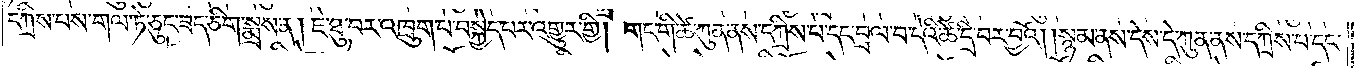དཀྲིས་པས་གལ་ཏེ་ཅུང་ཟད་ཅིག་སྨྲས་ན། ཇེ་ཐུ་བར་འཁྲུག་པ་བསྐྱེད་པར་འགྱུར་གྱི། གང་གི་ཚེ་ཀུན་ནས་དཀྲིས་པ་དང་བྲལ་བ་དེའི་ཚེ་དྲི་བར་བྱའོ། །སྙམ་ནས་དེས་དེ་ཀུན་ནས་དཀྲིས་པ་དང་
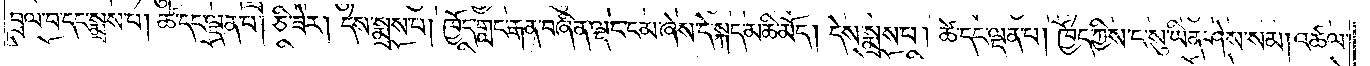བྲལ་བ་དང་སྨྲས་པ། ཚེ་དང་ལྡན་པ། ཅི་ཟེར། དེས་སྨྲས་པ། ཁྱོད་གླང་རྒན་བཞིན་ལྡང་ངམ་ཞེས་དེ་སྐད་མཆི་མོད། དེས་སྨྲས་པ། ཚེ་དང་ལྡན་པ། ཁྱོད་ཀྱིས་ང་སུ་ཡིན་ཤེས་སམ། འཚལ་
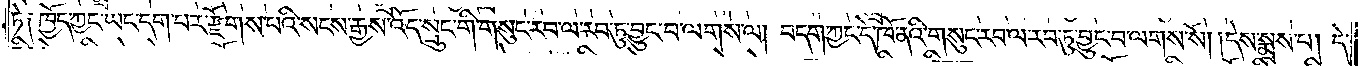ཏེ༑ ཁྱོད་ཀྱང་ཡང་དག་པར་རྫོགས་པའི་སངས་རྒྱས་འོད་སྲུང་གི་གསུང་རབ་ལ་རབ་ཏུ་བྱུང་བ་ལགས་ལ། བདག་ཀྱང་དེ་ཁོ་ནའི་གསུང་རབ་ལ་རབ་ཏུ་བྱུང་བ་ལགས་སོ། །དེས་སྨྲས་པ། དེ་
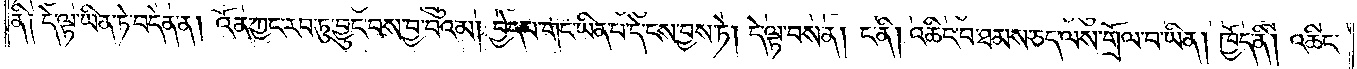ནི༑ དེ་ལྟ་ཡིན་ཏེ་བདེན་ན། འོན་ཀྱང་རབ་ཏུ་བྱུང་བས་བྱ་བའམ། བྱེད་པ་གང་ཡིན་པ་དེ་ངས་བྱས་ཏེ། དེ་ལྟ་བས་ན། ང་ནི། འཆིང་བ་ཐམས་ཅད་ལས་གྲོལ་བ་ཡིན། ཁྱོད་ནི། འཆིང་
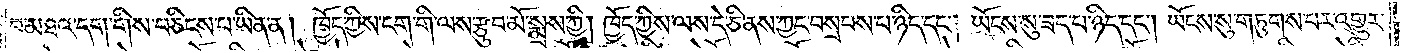བ་མཐའ་དག་གིས་བཅིངས་པ་ཡིན་ན། ཁྱོད་ཀྱིས་ངག་གི་ལས་རྩུབ་མོ་སྨྲས་ཀྱི། ཁྱོད་ཀྱིས་ལས་དེ་ཅི་ནས་ཀྱང་བསྲབས་པ་ཉིད་དང༌། ཡོངས་སུ་ཟད་པ་ཉིད་དང༌། ཡོངས་སུ་གཏུགས་པར་འགྱུར་
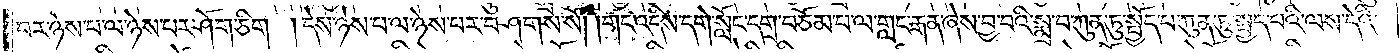བར་ཉེས་པ་ལ་ཉེས་པར་ཤོག་ཅིག །དེས་ཉེས་པ་ལ་ཉེས་པར་བཤགས་སོ། །གང་འདིས་དགེ་སློང་དགྲ་བཅོམ་པ་ལ་གླང་རྒན་ཞེས་བྱ་བའི་སྨྲ་བ་ཀུན་ཏུ་སྤྱོད་པ་ཀུན་ཏུ་སྤྱད་པའི་ལས་དེའི་
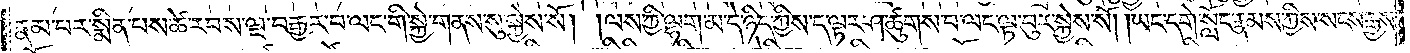རྣམ་པར་སྨིན་པས་ཚེ་རབས་ལྔ་བརྒྱར་བ་ལང་གི་སྐྱེ་གནས་སུ་སྐྱེས་སོ། །ལས་ཀྱི་ལྷག་མ་དེ་ཉིད་ཀྱིས་ད་ལྟར་ཤ་ཚུགས་བ་བ་ལང་ལྟ་བུར་སྐྱེས་སོ། །ཡང་དགེ་སློང་རྣམས་ཀྱིས་སངས་རྒྱས་
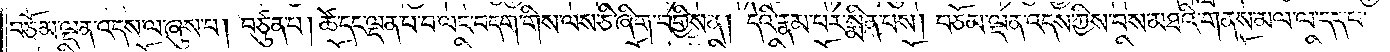བཅོམ་ལྡན་འདས་ལ་ཞུས་པ། བཙུན་པ། ཚེ་དང་ལྡན་པ་བ་ལང་བདག་གིས་ལས་ཅི་ཞིག་བགྱིས་ན། དེའི་རྣམ་པར་སྨིན་པས། བཅོམ་ལྡན་འདས་ཀྱིས་བས་མཐའི་གནས་མལ་ལ་དད་པ་
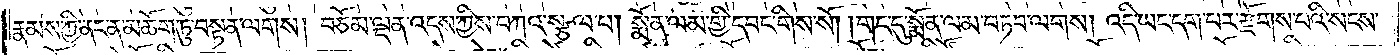རྣམས་ཀྱི་ནང་ན་མཆོག་ཏུ་བསྟན་ལགས། བཅོམ་ལྡན་འདས་ཀྱིས་བཀའ་སྩལ་པ། སྨོན་ལམ་གྱི་དབང་གིས་སོ། །གང་དུ་སྨོན་ལམ་བཏབ་ལགས། འདི་ཡང་དག་པར་རྫོགས་པའི་སངས་
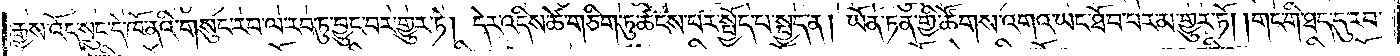རྒྱས་འོད་སྲུང་དེ་ཁོ་ནའི་གསུང་རབ་ལ་རབ་ཏུ་བྱུང་བར་གྱུར་ཏེ། དེར་འདིས་ཚེ་གཅིག་ཏུ་ཚངས་པར་སྤྱོད་པ་སྤྱད་ན། ཡོན་ཏན་གྱི་ཚོགས་འགའ་ཡང་ཐོབ་པར་མ་གྱུར་ཏོ། །གང་གི་ཐད་དུ་རབ་
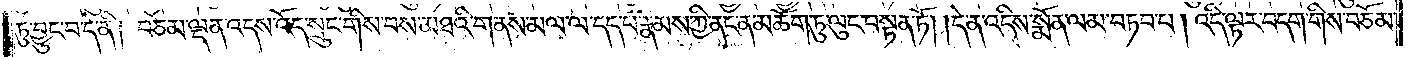ཏུ་བྱུང་བ་དེ་ནི། བཅོམ་ལྡན་འདས་འོད་སྲུང་གིས་བས་མཐའི་གནས་མལ་ལ་དད་པ་རྣམས་ཀྱི་ནང་ན་མཆོག་ཏུ་ལུང་བསྟན་ཏོ། །དེ་ན་འདིས་སྨོན་ལམ་བཏབ་པ། འདི་ལྟར་བདག་གིས་བཅོམ་
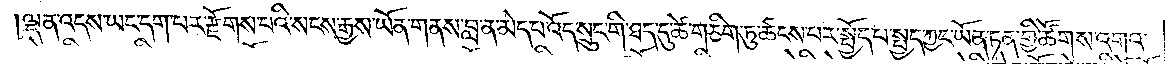ལྡན་འདས་ཡང་དག་པར་རྫོགས་པའི་སངས་རྒྱས་ཡོན་གནས་བླ་ན་མེད་པ་འོད་སྲུང་གི་ཐད་དུ་ཚེ་གཅིག་ཏུ་ཚངས་པར་སྤྱོད་པ་སྤྱད་ཀྱང་ཡོན་ཏན་གྱི་ཚོགས་འགའ་
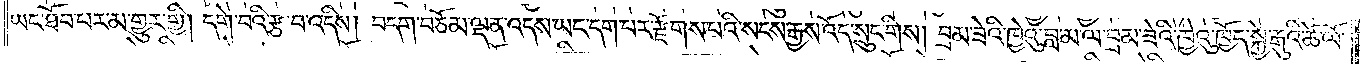ཡང་ཐོབ་པར་མ་གྱུར་གྱི། དགེ་བའི་རྩ་བ་འདིས། བདག་བཅོམ་ལྡན་འདས་ཡང་དག་པར་རྫོགས་པའི་སངས་རྒྱས་འོད་སྲུང་གིས། བྲམ་ཟེའི་ཁྱེའུ་བླ་མ་ལ་བྲམ་ཟེའི་ཁྱེའུ་ཁྱོད་སྐྱེ་རྒུའི་ཚེ་ལོ་
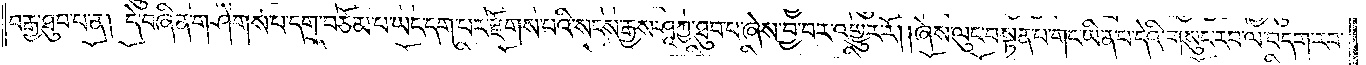བརྒྱ་ཐུབ་པ་ན། དེ་བཞིན་གཤེགས་པ་དགྲ་བཅོམ་པ་ཡང་དག་པར་རྫོགས་པའི་སངས་རྒྱས་ཤཱཀྱ་ཐུབ་པ་ཞེས་བྱ་བར་འགྱུར་རོ། །ཞེས་ལུང་བསྟན་པ་གང་ཡིན་པ་དེའི་གསུང་རབ་ལ་བདག་རབ་
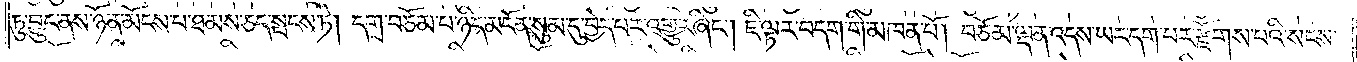ཏུ་བྱུང་ནས་ཉོན་མོངས་པ་ཐམས་ཅད་སྤངས་ཏེ། དགྲ་བཅོམ་པ་ཉིད་མངོན་སུམ་དུ་བྱེད་པར་འགྱུར་ཞིང༌། ཇི་ལྟར་བདག་གི་མཁན་པོ། བཅོམ་ལྡན་འདས་ཡང་དག་པར་རྫོགས་པའི་སངས་
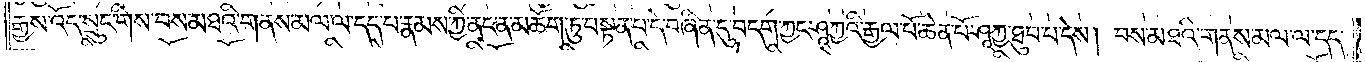རྒྱས་འོད་སྲུང་གིས་བས་མཐའི་གནས་མལ་ལ་དད་པ་རྣམས་ཀྱི་ནང་ན་མཆོག་ཏུ་བསྟན་པ་དེ་བཞིན་དུ་བདག་ཀྱང་ཤཱཀྱའི་རྒྱལ་པོ་ཆེན་པོ་ཤཱཀྱ་ཐུབ་པ་དེས། བས་མཐའི་གནས་མལ་ལ་དད་
